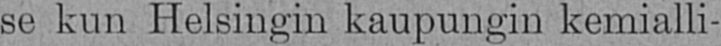se kun Helsingin kaupungin kemialli-
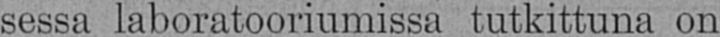sessa laboratooriumissa tutkittuna on
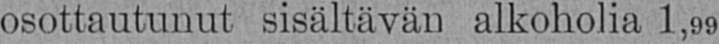osottautunut sisältävän alkoholia 1,99
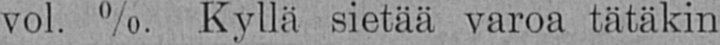vol. %. Kyllä sietää varoa tätäkin
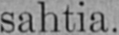sahtia.
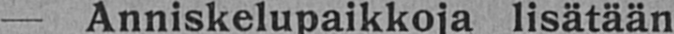— Anniskelupaikkoja lisätään
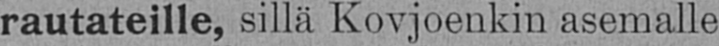rautateille, sillä Kovjoenkin asemalle
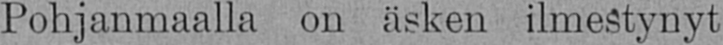Pohjanmaalla on äsken ilmestynyt
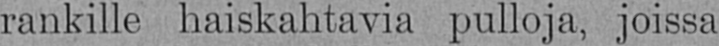rankille haiskahtavia pulloja, joissa
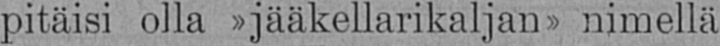pitäisi olla »jääkellarikaljan» nimellä
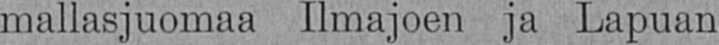mallasjuomaa Ilmajoen ja Lapuan
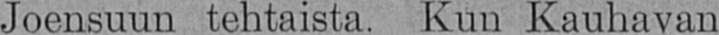Joensuun tehtaista. Kun Kauhavan
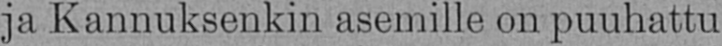ja Kannuksenkin asemille on puuhattu
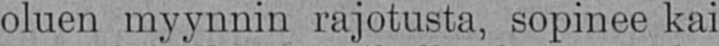oluen myynnin rajatusta, sopinee kai
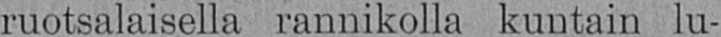ruotsalaisella rannikolla kuntain lu-
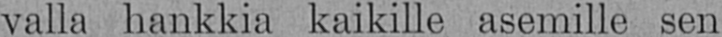valla hankkia kaikille asemille sen
